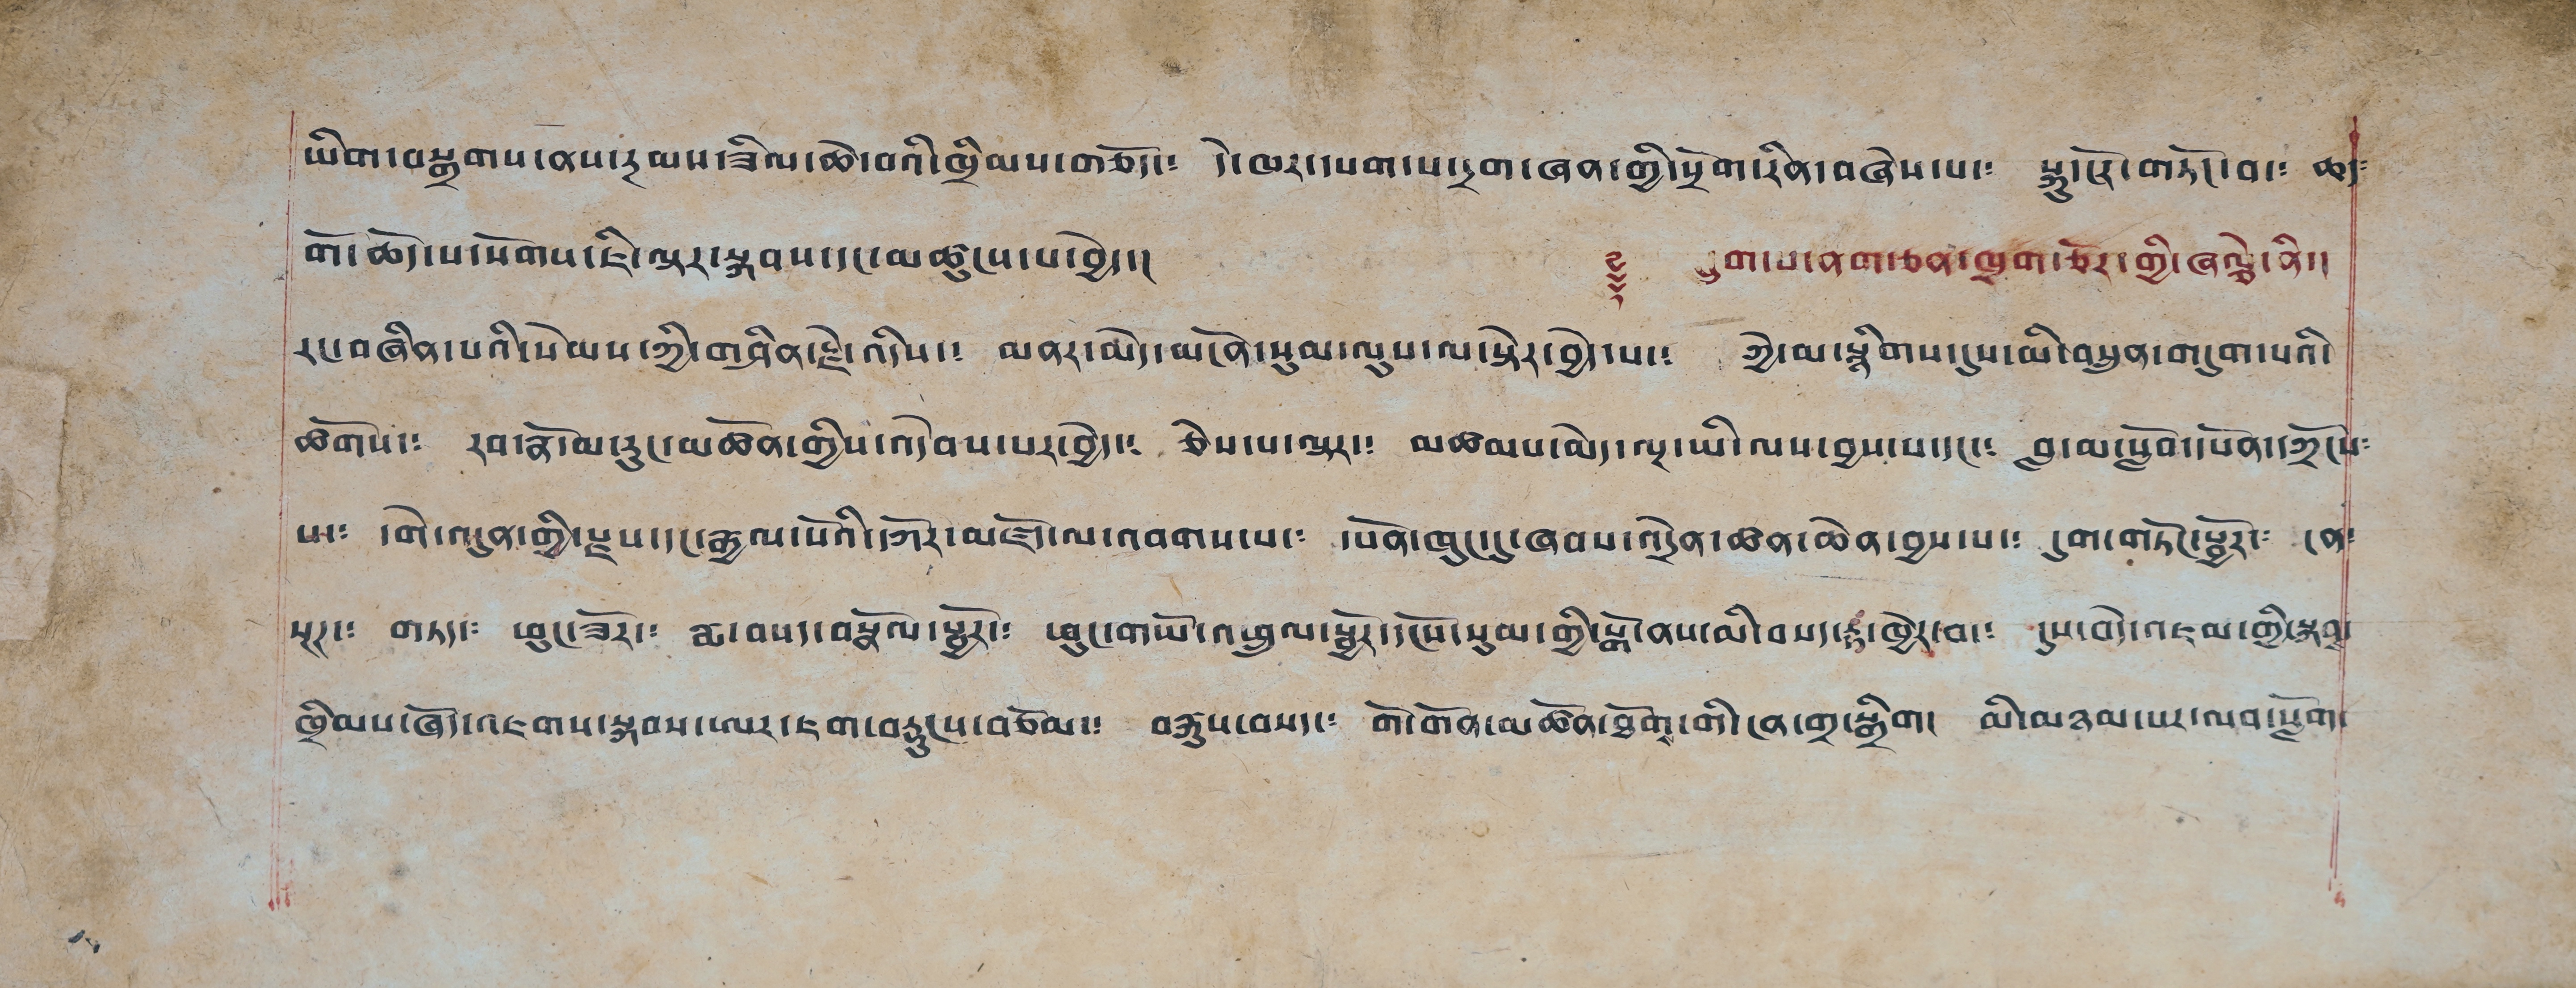ཡིག་བསྒྲགས་ནས་རྔམས་ཟིལ་ཆེ་བའི་ཁྲིམས་གཅོད་༴ དེ་ཁར་དཔག་པ་དྲག་ཞན་གྱི་སྲོག་རིན་བཞེས་པ་༴ སྐུ་ངོར་གཏོང་བ་༴ ཆད༴
གོ་ཆོད་པ་སོགས་ཇི་ལྟར་སྐབས་དང་མཚུངས་པ་བྱེད་། ༈ དྲུག་པ་ནག་ཅན་ཁྲག་ཅོར་གྱི་ཞལྕེ་ནི་།
རང་བཞིན་པའི་སེམས་ཀྱི་གཤིན་རྗེ་འདིས་༴ མནར་མེད་མངོན་སུམ་ལུས་ལ་སྟེར་བྱེད་པ་༴ ཀྱེ་མ་སྙིགས་དུས་མི་བསྲུན་གདུག་པའི་
ཚོགས་༴ རབ་རྣོ་མ་རུང་མཚོན་གྱིས་འདེབས་པར་བྱེད་༴ ཅེས་པ་ལྟར་༴ མཚམས་མེད་ལྔ་ཡི་ལས་བྱས་པ་དང་༴ བླ་མ་སློབ་དཔོན་དཀྲོངས༴
པ་༴ དགེ་འདུན་གྱི་རྫས་དང་རྒྱལ་པོའི་དཀོར་མཛོད་ལ་འབགས་པ་༴ དཔོན་ཁུང་དུ་ཞབས་འདྲེན་ཚན་ཆེན་བྱས་པ་༴ དུག་གཏོང་སྦྱོར་༴ ངན་
སྔཊ་༴ གཏད་༴ ཕྱུང་ཟོར་༴ རྨ་བསད་བསྣོལ་སྦྱོར་༴ ཕུང་གཡོ་འཕྲུལ་སྦྱོར་དངོས་སུམ་གྱི་སྒོ་ནས་མི་བསད་རྟ་ཁྱེར་བ་༴ དུས་བདེ་འཇམ་གྱི་སྐབས་
ཁྲིམས་ཞོད་འཇགས་སྐབས་ཨར་ཇག་བརྡུངས་བཅོམ་༴ བརྐུས་བསད་༴ གོ་གོན་མཚོན་ཐོག་གི་ངན་གྲ་སྒྲིག། མི་མཉམ་པར་ལབ་སློག་
